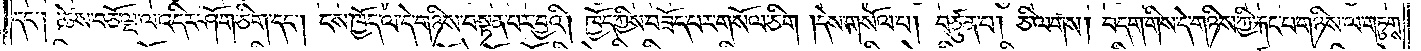དང༌། ཚེས་བཅོ་ལྔ་ལ་འདིར་ཤོག་ཅིག་དང༌། ངས་ཁྱོད་ལ་དེ་གཉིས་བསྟན་པར་བྱའི། ཁྱོད་ཀྱིས་བཟོད་པར་གསོལ་ཅིག །དེས་གསོལ་པ། བཙུན་པ། ཅི་ལགས། བདག་གིས་དེ་གཉིས་ཀྱི་རྐང་པ་གཉིས་ལ་གཏུགས་
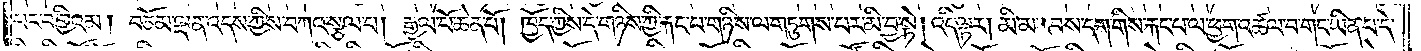པར་བགྱིའམ། བཅོམ་ལྡན་འདས་ཀྱིས་བཀའ་སྩལ་པ། རྒྱལ་པོ་ཆེན་པོ། ཁྱོད་ཀྱིས་དེ་གཉིས་ཀྱི་རྐང་པ་གཉིས་ལ་གཏུགས་པར་མི་བྱ་སྟེ། འདི་ལྟར། མི་མ་རབས་དག་གིས་རྐང་པ་ལ་ཕྱག་འཚལ་བ་གང་ཡིན་པ་དེ་
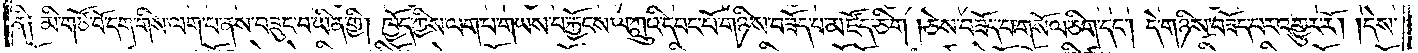ནི༑ མི་གཙོ་བོ་དག་གིས་ལག་པ་ནས་བཟུང་བ་ཡིན་གྱི། ཁྱོད་ཀྱིས་ལག་པ་གཡས་པ་རྐྱོངས་ལ་ཀླུའི་དབང་པོ་གཉིས་བཟོད་པ་མཛོད་ཅིག །ཅེས་བཟོད་པ་གསོལ་ཅིག་དང༌། དེ་གཉིས་བཟོད་པར་འགྱུར་རོ། །དེས་
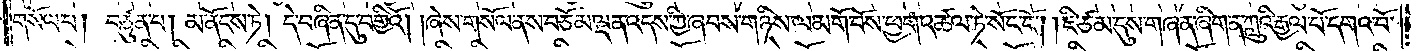གསོལ་བ། བཙུན་པ། མ་ནོངས་ཏེ། དེ་བཞིན་དུ་བགྱིའོ། །ཞེས་གསོལ་ནས་བཅོམ་ལྡན་འདས་ཀྱི་ཞབས་གཉིས་ལ་མགོ་བོས་ཕྱག་འཚལ་ཏེ་སོང་ངོ༌། །ཇི་ཙམ་དུས་གཞན་ཞིག་ན་ཀླུའི་རྒྱལ་པོ་དགའ་བོ་
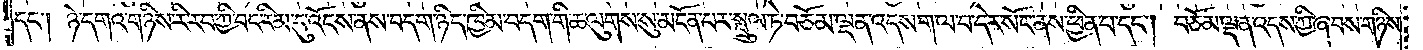དང༌། ཉེ་དགའ་གཉིས་རི་རབ་ཀྱི་བང་རིམ་དུ་འོངས་ནས་བདག་ཉིད་ཁྱིམ་བདག་གི་ཆ་ལུགས་སུ་མངོན་པར་སྤྲུལ་ཏེ་བཅོམ་ལྡན་འདས་ག་ལ་བ་དེར་སོང་ནས་ཕྱིན་པ་དང༌། བཅོམ་ལྡན་འདས་ཀྱི་ཞབས་གཉིས་
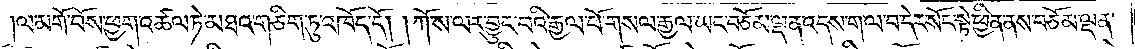ལ་མགོ་བོས་ཕྱག་འཚལ་ཏེ་མཐའ་གཅིག་ཏུ་འཁོད་དོ། །ཀོ་ས་ལར་བྱུང་བའི་རྒྱལ་པོ་གསལ་རྒྱལ་ཡང་བཅོམ་ལྡན་འདས་ག་ལ་བ་དེར་སོང་སྟེ་ཕྱིན་ནས་བཅོམ་ལྡན་
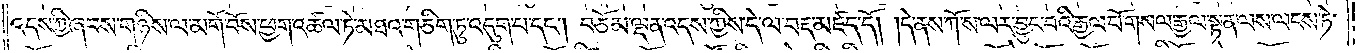འདས་ཀྱི་ཞབས་གཉིས་ལ་མགོ་བོས་ཕྱག་འཚལ་ཏེ་མཐའ་གཅིག་ཏུ་འདུག་པ་དང༌། བཅོམ་ལྡན་འདས་ཀྱིས་དེ་ལ་བརྡ་མཛད་དོ། །དེ་ནས་ཀོ་ས་ལར་བྱུང་བའི་རྒྱལ་པོ་གསལ་རྒྱལ་སྟན་ལས་ལངས་ཏེ་
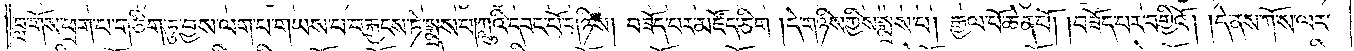བླ་གོས་ཕྲག་པ་གཅིག་ཏུ་བྱས་ལག་པ་གཡས་པ་བརྐྱངས་ཏེ་སྨྲས་པ། ཀླུའི་དབང་པོ་གཉིས། བཟོད་པར་མཛོད་ཅིག །དེ་གཉིས་ཀྱིས་སྨྲས་པ། རྒྱལ་པོ་ཆེན་པོ། །བཟོད་པར་བགྱིའོ། །དེ་ནས་ཀོ་ས་ལར་
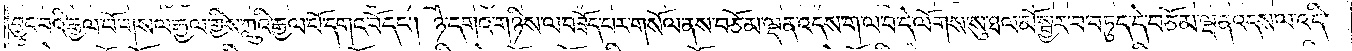བྱུང་བའི་རྒྱལ་པོ་གསལ་རྒྱལ་གྱིས་ཀླུའི་རྒྱལ་པོ་དགའ་བོ་དང༌། ཉེ་དགའ་གཉིས་ལ་བཟོད་པར་གསོལ་ནས་བཅོམ་ལྡན་འདས་ག་ལ་བ་དེ་ལོགས་སུ་ཐལ་མོ་སྦྱར་བ་བཏུད་དེ་བཅོམ་ལྡན་འདས་ལ་འདི་
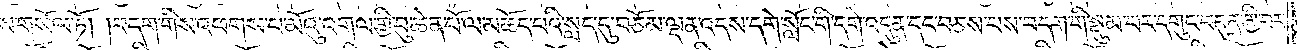ས་གསོལ་ཏོ། །བདག་གིས་འཕགས་པ་མོའུ་འགལ་གྱི་བུ་ཆེན་པོ་ལ་མཆོད་པའི་སླད་དུ་བཅོམ་ལྡན་འདས་དགེ་སློང་གི་དགེ་འདུན་དང་བཅས་པས་བདག་གི་སྡུམ་པར་དགུང་བདུན་གྱི་བར་
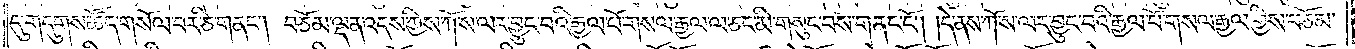དུ་གདུགས་ཚོད་གསོལ་བར་ཅི་གནང༌། བཅོམ་ལྡན་འདས་ཀྱིས་ཀོ་ས་ལར་བྱུང་བའི་རྒྱལ་པོ་གསལ་རྒྱལ་ལ་ཅང་མི་གསུང་བས་གནང་ངོ༌། །དེ་ནས་ཀོ་ས་ལར་བྱུང་བའི་རྒྱལ་པོ་གསལ་རྒྱལ་གྱིས་བཅོམ་
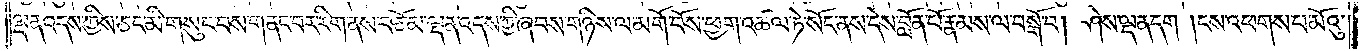ལྡན་འདས་ཀྱིས་ཅང་མི་གསུང་བས་གནང་བར་རིག་ནས་བཅོམ་ལྡན་འདས་ཀྱི་ཞབས་གཉིས་ལ་མགོ་བོས་ཕྱག་འཚལ་ཏེ་སོང་ནས་དེས་བློན་པོ་རྣམས་ལ་བསྒོ་བ། ཤེས་ལྡན་དག །ངས་འཕགས་པ་མོའུ་
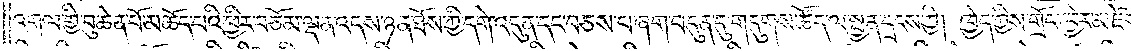འགལ་གྱི་བུ་ཆེན་པོ་མཆོད་པའི་ཕྱིར་བཅོམ་ལྡན་འདས་ཉན་ཐོས་ཀྱི་དགེ་འདུན་དང་བཅས་པ་ཞག་བདུན་དུ་གདུགས་ཚོད་ལ་སྤྱན་དྲངས་ཀྱི། ཁྱེད་ཀྱིས་གྲོང་ཁྱེར་མཛེས་
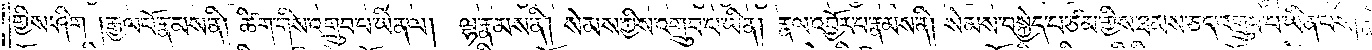གྱིས་ཤིག །རྒྱལ་པོ་རྣམས་ནི། ཚིག་གིས་འགྲུབ་པ་ཡིན་ལ། ལྷ་རྣམས་ནི། སེམས་ཀྱིས་འགྲུབ་པ་ཡིན། རྣལ་འབྱོར་པ་རྣམས་ནི། སེམས་བསྐྱེད་པ་ཙམ་གྱིས་ཐམས་ཅད་འགྲུབ་པ་ཡིན་པས། བློན་
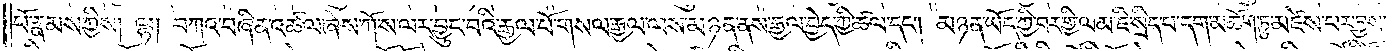པོ་རྣམས་ཀྱིས། ལྷ། བཀའ་བཞིན་འཚལ་ཞེས་ཀོ་ས་ལར་བྱུང་བའི་རྒྱལ་པོ་གསལ་རྒྱལ་ལས་མཉན་ནས་རྒྱལ་བྱེད་ཀྱི་ཚལ་དང༌། མཉན་ཡོད་ཀྱི་བར་གྱི་ལམ་ཇི་སྲིད་པ་དག་མཆོག་ཏུ་མཛེས་པར་བྱས་
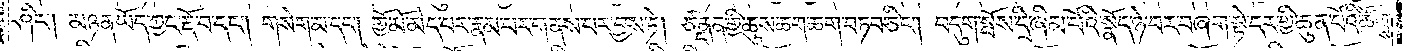ཤིང༌། མཉན་ཡོད་ཀྱང་རྡོ་བ་དང༌། གསེག་མ་དང༌། གྱོ་མོ་མེད་པར་རྣམ་པར་གནས་པར་བྱས་ཏེ། ཙནྡན་གྱི་ཆུས་ཆག་ཆག་བཏབ་ཅིང༌། བདུག་སྤོས་དྲི་ཞིམ་པོའི་སྣོད་ཉེ་བར་བཞག་སྟེ་དར་གྱི་ཆུན་པོའི་ཚོགས་
